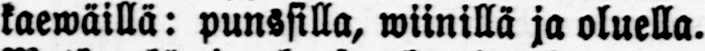kaewäillä: punssilla, wiinillä ja oluella.
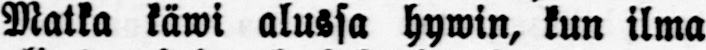Matka käwi alussa hywin, kun ilma
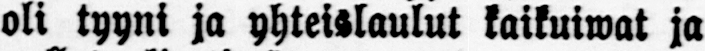oli tyyni ja yhteislaulut kaikuiwat ja
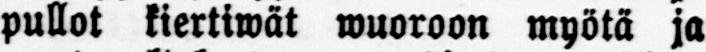pullot kiertivät vuoroon myötä ja
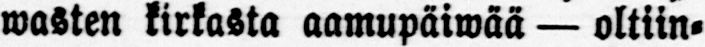wasten kirkasta aamupäiwää — oltiin-
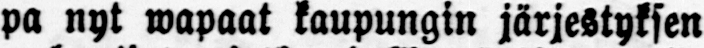pa nyt wapaat kaupungin järjestyksen
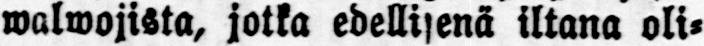walwojista, jotka edellisenä iltana oli-
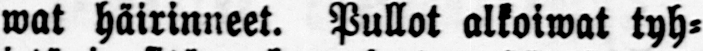wat häirinneet. Pullot alkoivat tyh-
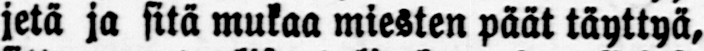jetä ja sitä mukaa miesten päät täyttyä,
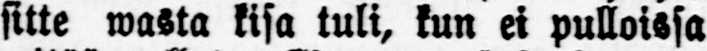sttte wasta kisa tuli, kun ei pulloissa
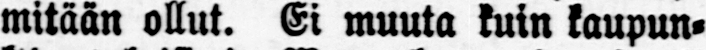mitään ollut. Ei muuta kuin kaupun-
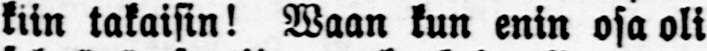kiin takaisin! Waan kun enin osa oli
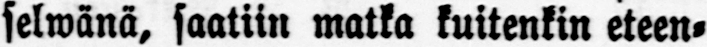selwänä, saatiin matka kuitenkin eteen-
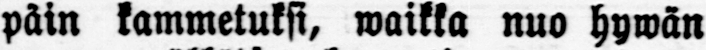päin kammetuksi, waikka nuo hywän
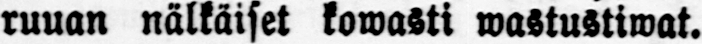ruuan nälkäiset kowasti wastustiwat.
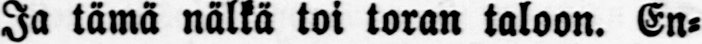Ja tämä nälkä toi toran taloon. En-
